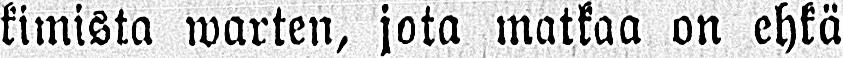kimista warten, jota matkaa on ehkä
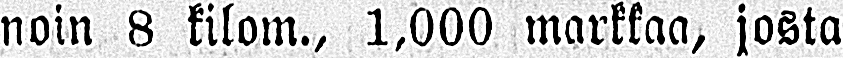noin 8 kiloin., 1,000 markkaa, josta
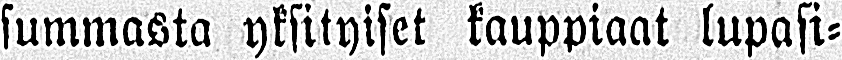summasta yksityiset kauppiaat lupasi-
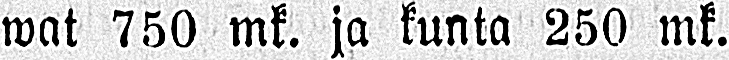wat 750 mk. ja kunta 250 mk.
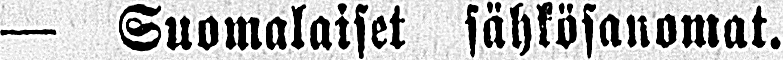— Suomalaiset sähkösanomat.
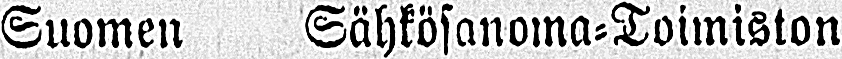Suomen Sähkösanoma-Toimiston
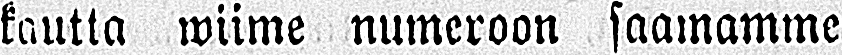kautta wiime numeroon saamamme
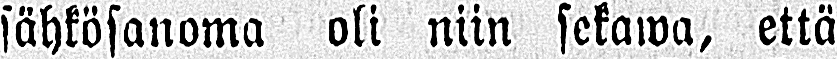sähkösanoma oli niin sekawa, että
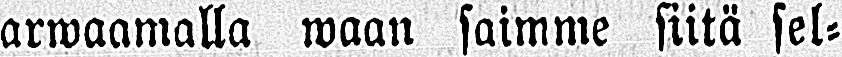arwaamalla waan saimme siitä sel-
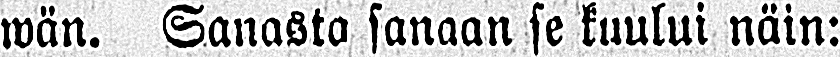wän. Sanasto sanaan se kuului näin:
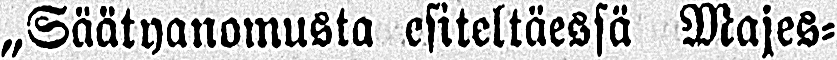„Säätyanomusta esiteltäessä Majes-
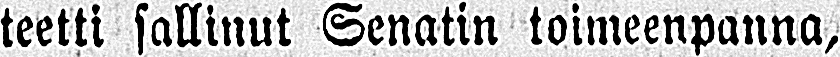teetti sallinut Senatin toimeenpanna,
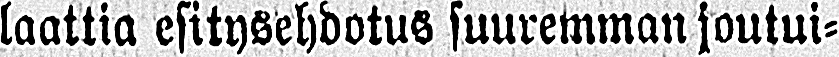laattia esitysehdotus suuremman joutui-
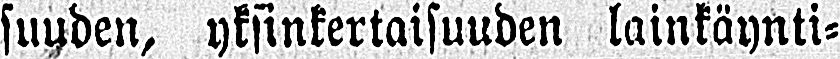suuden, yksinkertaisuuden lainkäynti-
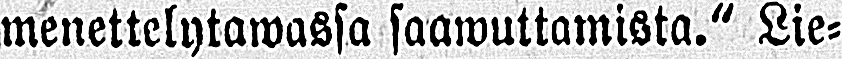menettelytawassa saawuttamista." Lie-
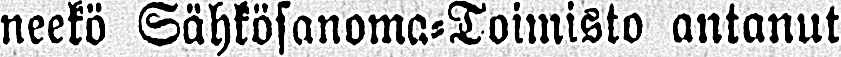neekö Sähkösanoma-Toimisto antanut
